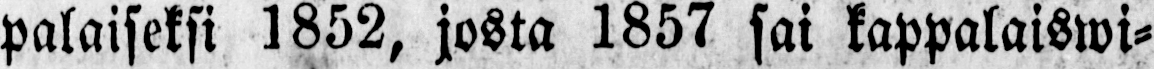palaiseksi 1852, josta 1857 sai kappalaiswi-
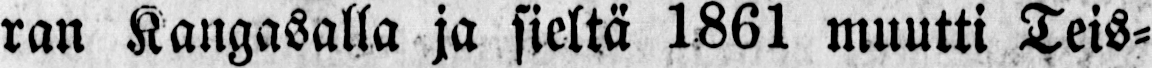ran Kangasalla ja sieltä 1861 muutti Teis-
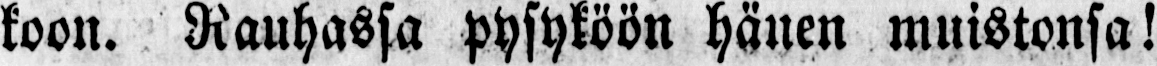koon. Rauhassa pysyköön hänen muistonsa!
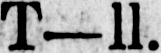T-ll.
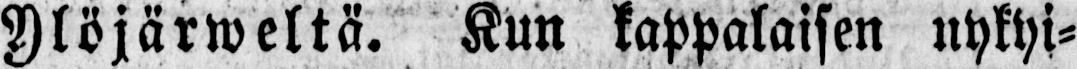Ylöjärweltä. Kun kappalaisen nykyi-
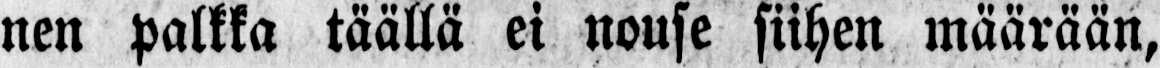nen palkka täällä ei nouse siihen määrään,
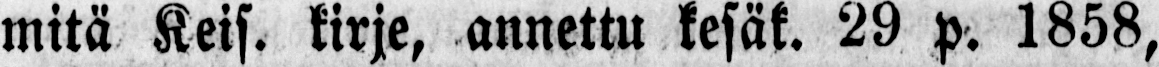mitä Keis. kirje, annettu kesäk. 29 p. 1858,
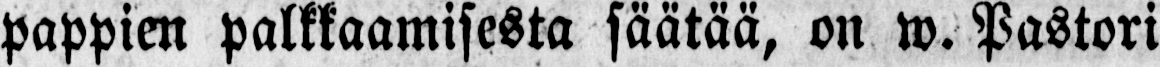pappien palkkaamisesta säätää, on w. Pastori
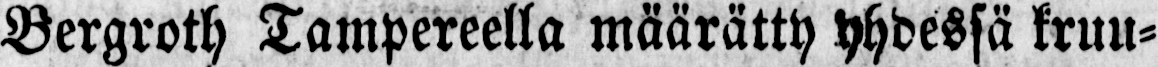Bergroth Tampereella määrätty Yhdessä kruu-
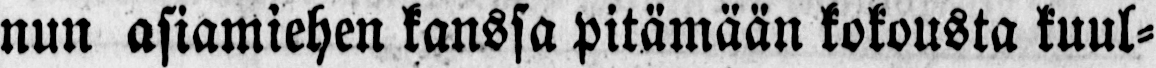nun asiamiehen kanssa pitämään kokousta kuul-
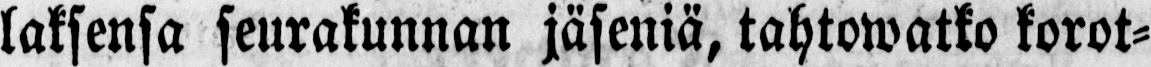laksensa seurakunnan jäseniä, tahtowatko korot-
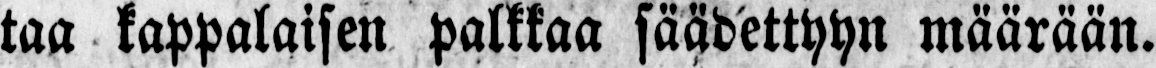taa kappalaisen palkkaa säädettyyn määrään.
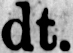dt.
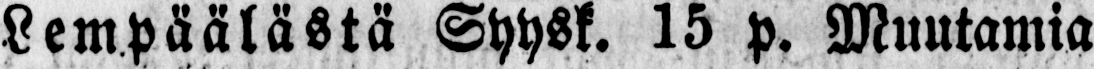Lempäälästä Syysk. 15 p. Muutamia
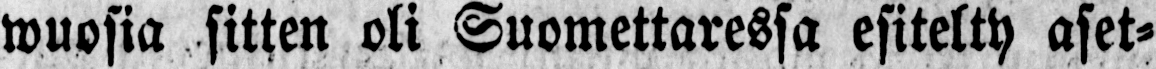wuosia sitten oli Suomettaressa esitelty aset-
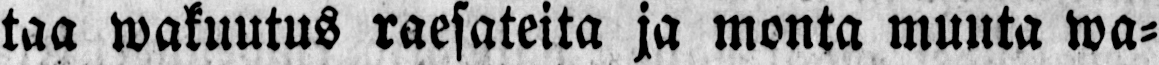taa wakuutus raesateita ja monta muuta wa-
